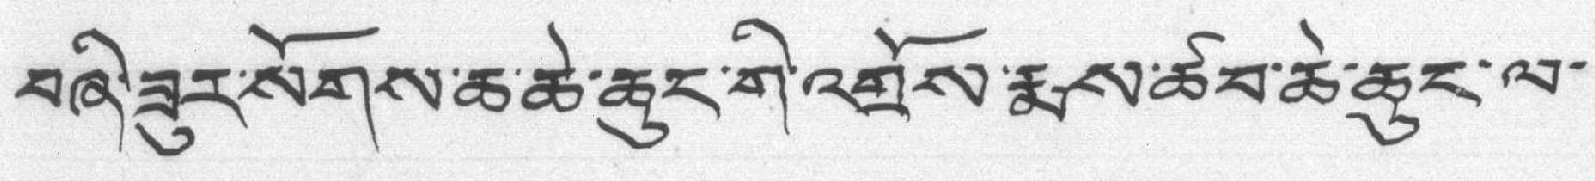བཞི་ཟུར་སོགས་ཆ་ཆེ་ཆུང་གི་འགྲོས་རྨས་ཚབ་ཆེ་ཆུང་ལ་
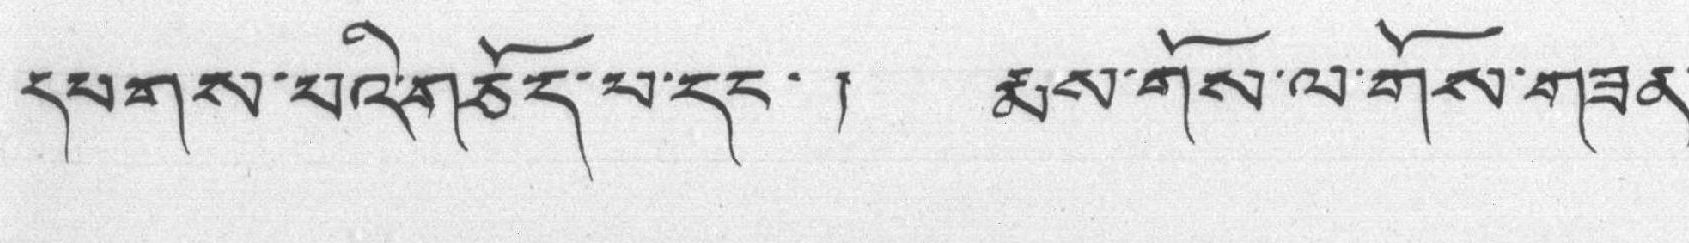དཔགས་པའི་གཅོད་པ་དང་། རྨས་གོས་ལ་གོས་གཟན་
